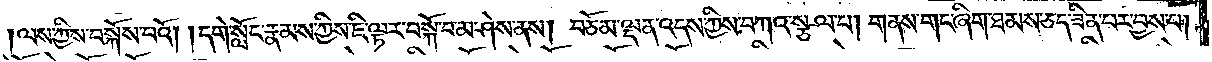།ལས་ཀྱིས་བསྐོས་པའོ། །དགེ་སློང་རྣམས་ཀྱིས་ཇི་ལྟར་བསྐོ་བ་མ་ཤེས་ནས། བཅོམ་ལྡན་འདས་ཀྱིས་བཀའ་སྩལ་པ། གནས་གང་ཞིག་ཐམས་ཅད་ཟིན་པར་བྱས་པ།
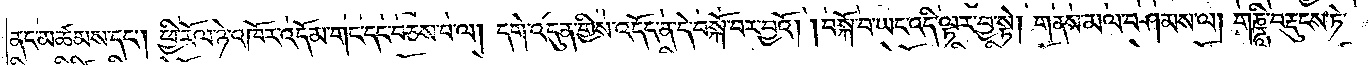ནང་མཚམས་དང༌། ཕྱི་རོལ་ཉེ་འཁོར་འདོམ་གང་དང་བཅས་པ་ལ། དགེ་འདུན་གྱིས་འདོད་ན་དེ་བསྐོ་བར་བྱའོ། །བསྐོ་བ་ཡང་འདི་ལྟར་བྱ་སྟེ། གནས་མལ་བཤམས་ལ། གཎྜཱི་བརྡུངས་ཏེ་
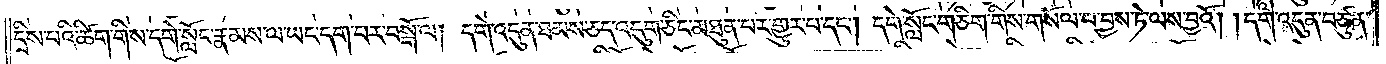དྲིས་པའི་ཚིག་གིས་དགེ་སློང་རྣམས་ལ་ཡང་དག་པར་བསྒོ་ལ། དགེ་འདུན་ཐམས་ཅད་འདུག་ཅིང་མཐུན་པར་གྱུར་པ་དང༌། དགེ་སློང་གཅིག་གིས་གསོལ་བ་བྱས་ཏེ་ལས་བྱའོ། །དགེ་འདུན་བཙུན་
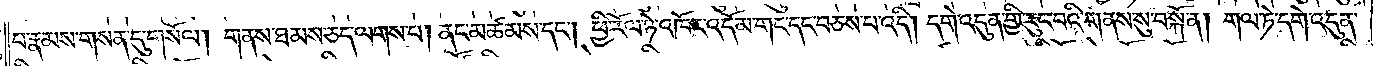པ་རྣམས་གསན་དུ་གསོལ། གནས་ཐམས་ཅད་ལགས་པ། ནང་མཚམས་དང༌། ཕྱི་རོལ་ཉེ་འཁོར་འདོམ་གང་དང་བཅས་པ་འདི། དགེ་འདུན་གྱི་རུང་བའི་གནས་སུ་བསྐོ་ན། གལ་ཏེ་དགེ་འདུན་
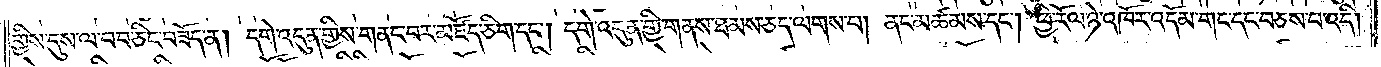གྱིས་དུས་ལ་བབ་ཅིང་བཟོད་ན། དགེ་འདུན་གྱིས་གནང་བར་མཛོད་ཅིག་དང༌། དགེ་འདུན་གྱི་གནས་ཐམས་ཅད་ལགས་པ། ནང་མཚམས་དང༌། ཕྱི་རོལ་ཉེ་འཁོར་འདོམ་གང་དང་བཅས་པ་འདི།
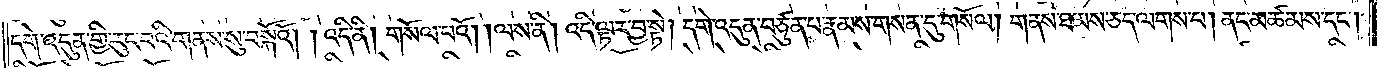དགེ་འདུན་གྱི་རུང་བའི་གནས་སུ་བསྐོའོ། །འདི་ནི། གསོལ་པའོ། །ལས་ནི། འདི་ལྟར་བྱ་སྟེ། དགེ་འདུན་བཙུན་པ་རྣམས་གསན་དུ་གསོལ། གནས་ཐམས་ཅད་ལགས་པ། ནང་མཚམས་དང༌།
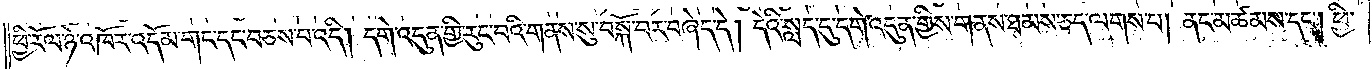ཕྱི་རོལ་ཉེ་འཁོར་འདོམ་གང་དང་བཅས་པ་འདི། དགེ་འདུན་གྱི་རུང་བའི་གནས་སུ་བསྐོ་བར་བཞེད་དེ། དེའི་སླད་དུ་དགེ་འདུན་གྱིས་གནས་ཐམས་ཅད་ལགས་པ། ནང་མཚམས་དང༌། ཕྱི་
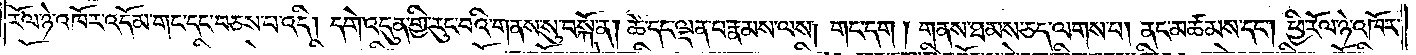རོལ་ཉེ་འཁོར་འདོམ་གང་དང་བཅས་པ་འདི། དགེ་འདུན་གྱི་རུང་བའི་གནས་སུ་བསྐོ་ན། ཚེ་དང་ལྡན་པ་རྣམས་ལས། གང་དག། གནས་ཐམས་ཅད་ལགས་པ། ནང་ཚམས་དང༌། ཕྱི་རོལ་ཉེ་འཁོར་
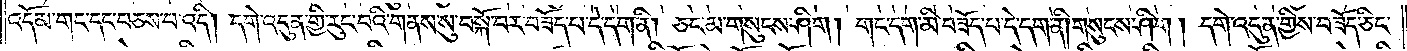འདོམ་གང་དང་བཅས་པ་འདི། དགེ་འདུན་གྱི་རུང་བའི་གནས་སུ་བསྐོ་བར་བཟོད་པ་དེ་དག་ནི། ཅང་མ་གསུངས་ཤིག། གང་དག་མི་བཟོད་པ་དེ་དག་ནི། གསུངས་ཤིག། དགེ་འདུན་གྱིས་བཟོད་ཅིང་
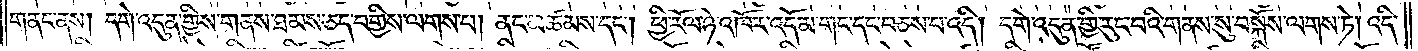གནང་ནས། དགེ་འདུན་གྱིས་གནས་ཐམས་ཅད་བགྱིས་ལགས་པ། ནང་མཚམས་དང༌། ཕྱི་རོལ་ཉེ་འཁོར་འདོམ་གང་དང་བཅས་པ་འདི། དགེ་འདུན་གྱི་རུང་བའི་གནས་སུ་བསྐོས་ལགས་ཏེ། འདི་
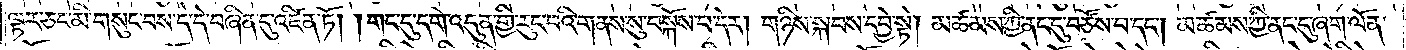ལྟར་ཅང་མི་གསུང་པས་དེ་དེ་བཞིན་དུ་འཛིན་ཏོ། །གང་དུ་དགེ་འདུན་གྱི་རུང་བའི་གནས་སུ་བསྐོས་པ་དེར། གཉིས་སྐབས་དབྱེ་སྟེ། མཚམས་ཀྱི་ནང་དུ་བཙོས་པ་དང༌། མཚམས་ཀྱི་ནང་དུ་ཞག་ལོན་
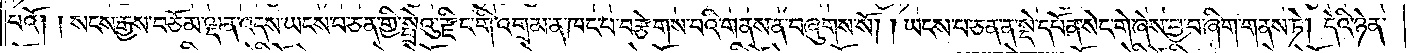པའོ། །སངས་རྒྱས་བཅོམ་ལྡན་འདས་ཡངས་པ་ཅན་གྱི་སྤྲེའུ་རྫིང་གི་འགྲམ་ན་ཁང་པ་བརྩེགས་པའི་གནས་ན་བཞུགས་སོ། །ཡངས་པ་ཅན་ན་སྡེ་དཔོན་སེང་གེ་ཞེས་བྱ་བ་ཞིག་གནས་ཏེ། དེའི་ཉེན་
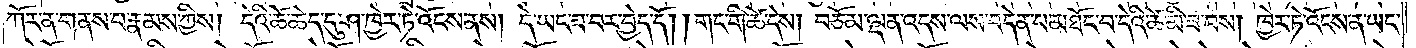ཀོར་ན་གནས་པ་རྣམས་ཀྱིས། དེའི་ཚེ་ཆེད་དུ་ཤ་ཁྱེར་ཏེ་འོངས་ནས། དེ་ཡང་ཟ་བར་བྱེད་དོ། །གང་གི་ཚེ་དེས། བཅོམ་ལྡན་འདས་ལས་བདེན་པ་མཐོང་བ་དེའི་ཚེ་མི་ཟ་བས། ཁྱེར་ཏེ་འོངས་ན་ཡང་
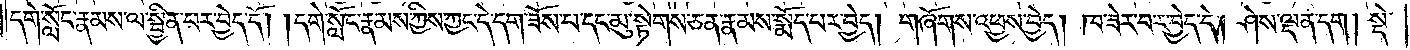དགེ་སློང་རྣམས་ལ་སྦྱིན་པར་བྱེད་དོ། །དགེ་སློང་རྣམས་ཀྱིས་ཀྱང་དེ་དག་ཟོས་པ་དང་མུ་སྟེགས་ཅན་རྣམས་སྨོད་པར་བྱེད། གཞོགས་འཕྱས་བྱེད། ཁ་ཟེར་བར་བྱེད་དེ། ཤེས་ལྡན་དག། སྡེ་
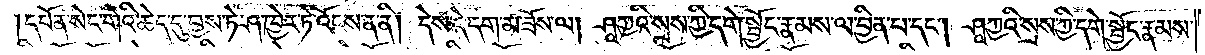།དཔོན་སེང་གེའི་ཆེད་དུ་བྱས་ཏེ་ཤ་ཁྱེར་ཏེ་འོངས་ན་ནི། དེས་དེ་དག་མ་ཟོས་ལ། ཤཱཀྱའི་སྲས་ཀྱི་དགེ་སྦྱོང་རྣམས་ལ་བྱིན་པ་དང༌། ཤཱཀྱའི་སྲས་ཀྱི་དགེ་སྦྱོང་རྣམས་
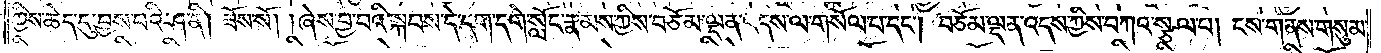ཀྱིས་ཆེད་དུ་བྱས་པའི་ཤ་ནི། ཟོས་སོ། །ཞེས་བྱ་བའི་སྐབས་དེ་དག་དགེ་སློང་རྣམས་ཀྱིས་བཅོལ་ལྡན་འདས་ལ་གསོལ་པ་དང༌། བཅོམ་ལྡན་འདས་ཀྱིས་བཀའ་སྩལ་པ། ངས་གནས་གསུམ་
